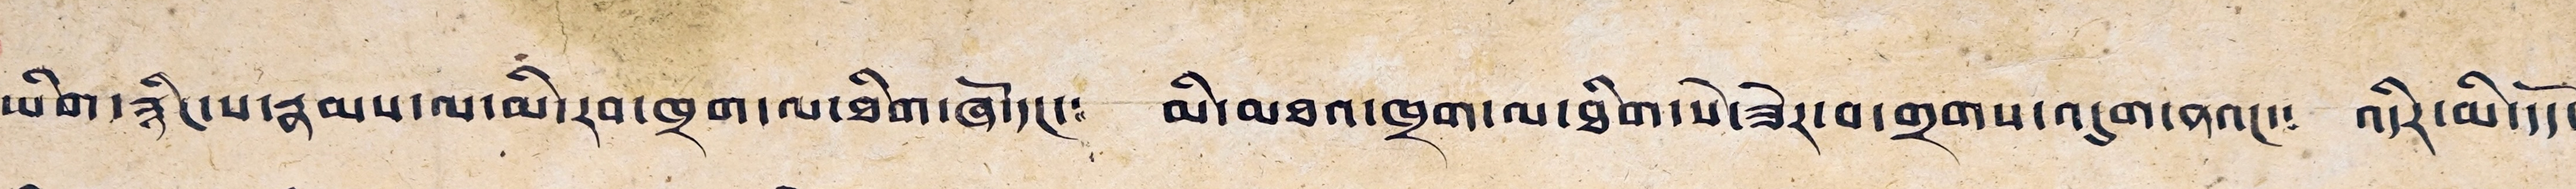ཡིག་རྙིང་པ་རྣམས་ལ་མི་རབ་ཁྲག་ལ་ཐིག་ཞོ་དང་༴ མི་མཐའ་ཁྲག་ལ་ཐིག་སེ་ཟེར་བ་གྲགས་འདུག་ནའང་༴ འདིར་མི་དོད་
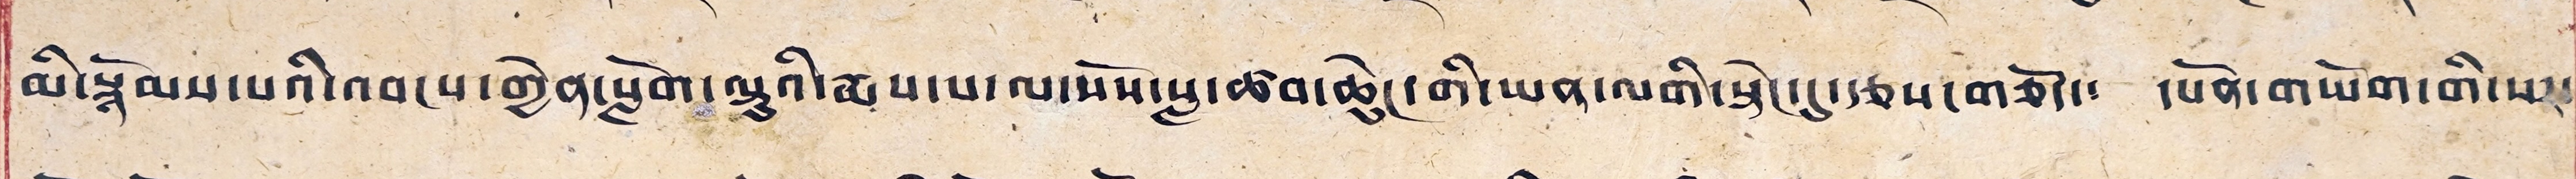མི་སྙོམས་པའི་འབངས་གྱེན་སློག་ལྟུའི་རྨས་པ་ལ་སོས་སླ་ཆབ་ཆེུང་གི་ཡན་ལགི་སྟེང་དུ་རྩས་གཅོད་༴ དཔོན་གཡོག་གི་སར་
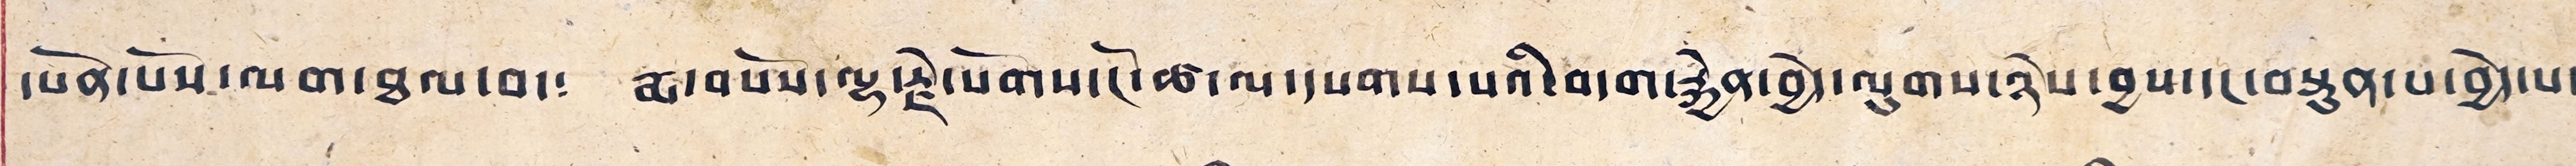དཔོན་པོས་ལག་ཐལ་བ་༴ རྨ་བསོས་ལྷ་རྗེ་སོགས་ངོ་ཚ་ལ་དཔགས་པའི་བདག་རྐྱེན་བྱེད་ལུགས་ཉེས་བྱས་དང་བསྟུན་པ་བྱེད་པ་
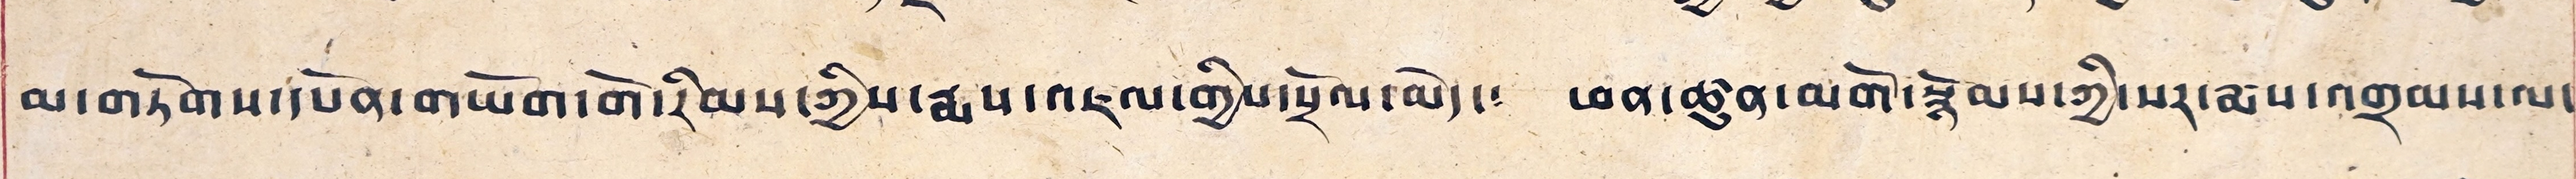མ་གཏོགས་དཔོན་གཡོག་གོ་རིམས་ཀྱིས་རྨས་འཇལ་གྱིས་སྲོལ་མེད་༴ ཕན་ཚུན་མགོ་རྙོམས་ཀྱི་སར་རྨས་འགྲམས་ལ་
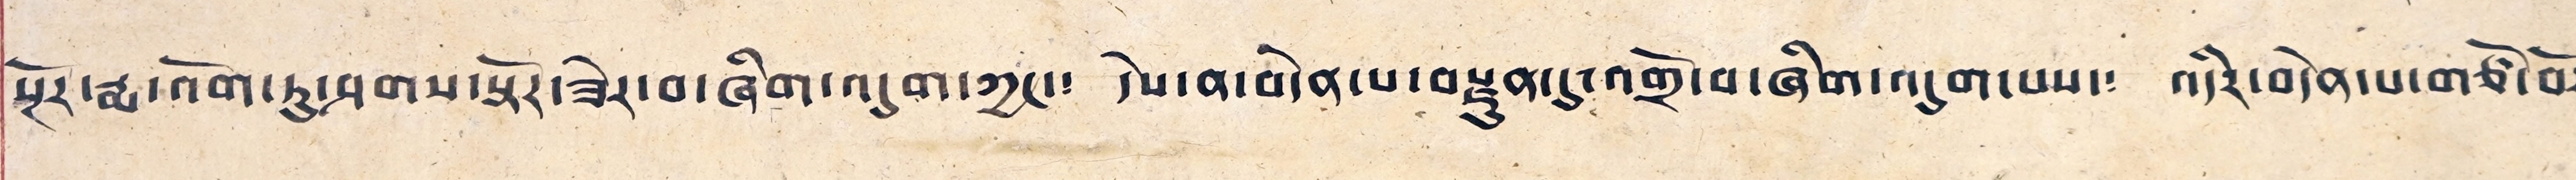སྔོར་རྨ་འོག་ཏུ་ཤགས་སྟོར་ཟེར་བ་ཞིག་འདུག་ཀྱང་༴ དེས་ན་བདེན་པ་བརྫུན་དུ་འགྲོ་བ་ཞིག་འདུག་པས་༴ འདིར་བདེན་པ་གཙོ་བོར༴
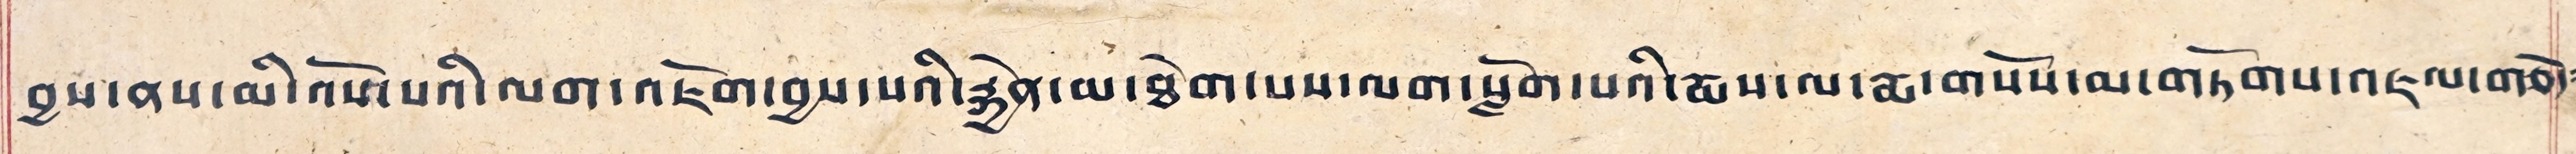བྱས་ནས་མི་འོས་པའི་ལག་འཇོག་བྱས་པའི་རྐྱེན་མ་ཐེག་པས་ལག་སློག་པའི་རྨས་ལ་རྨ་གསོས་མ་གཏོགས་འཇལ་གཅོད༴
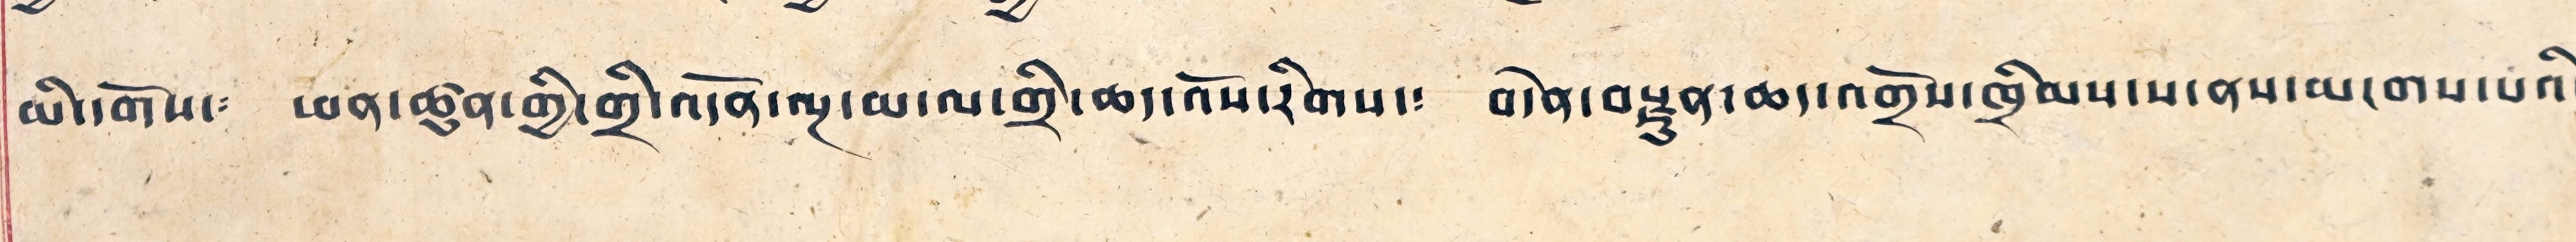མི་དགོས་༴ ཕན་ཚུན་གྱི་གྲི་འདོན་ལྔ་མ་ལ་གྲི་ཆད་འོས་རིགས་༴ བདེན་བརྫུན་ཆད་འགྲོས་ཁྲིམས་པ་ནས་མངགས་པའི་
